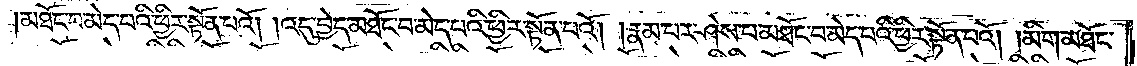མཐོང་བ་མེད་པའི་ཕྱིར་སྟོན་པའོ། །འདུ་བྱེད་མཐོང་བ་མེད་པའི་ཕྱིར་སྟོན་པའོ། །རྣམ་པར་ཤེས་པ་མཐོང་བ་མེད་པའི་ཕྱིར་སྟོན་པའོ། །མིག་མཐོང་
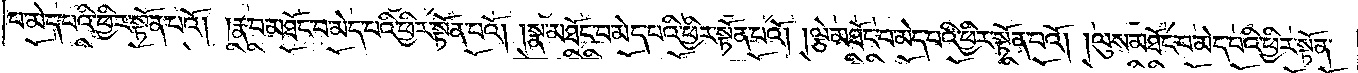པ་མེད་པའི་ཕྱིར་སྟོན་པའོ། །རྣ་བ་མཐོང་བ་མེད་པའི་ཕྱིར་སྟོན་པའོ། །སྣ་མཐོང་བ་མེད་པའི་ཕྱིར་སྟོན་པའོ། །ལྕེ་མཐོང་བ་མེད་པའི་ཕྱིར་སྤའོ། །ལུས་མཐོང་བ་མེད་པའི་ཕྱིར་སྟོན་
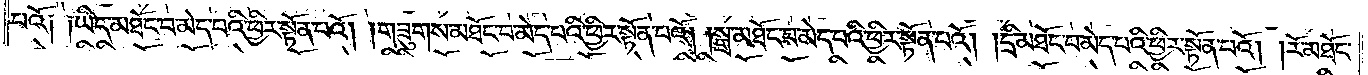པའོ༑ ༑ཡིད་མཐོང་བ་པའི་ཕྱིར་སྟོན་པའོ། །གཟུགས་མཐོང་བ་མེད་པའི་ཕྱིར་སྟོན་པའོ། །སྒྲ་མཐོང་བ་མེད་པའི་ཕྱིར་སྟོན་པའོ། །དྲི་མཐོང་བ་མེད་པའི་ཕྱིར་སྟོན་པའོ། །རོ་མཐོང་
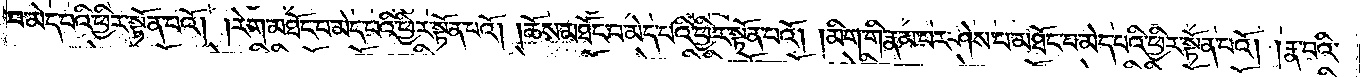བ་མེད་པའི་ཕྱིར་སྟོན་པའོ། །རེག་མཐོང་བ་མེད་པའི་ཕྱིར་སྟོན་པའོ། །ཆོས་མཐོང་བ་མེད་པའི་ཕྱིར་སྟོན་པའོ། །མིག་གི་རྣམ་པར་ཤེས་པ་མཐོང་བ་མེད་པའི་ཕྱིར་སྟོན་པའོ། །རྣ་བའི་
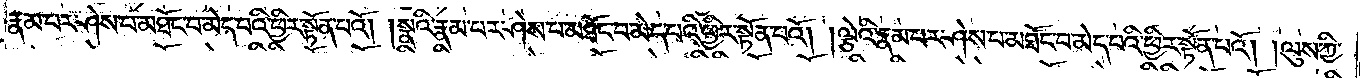རྣམ་པར་ཤེས་པ་མཐོང་བ་མེད་པའི་ཕྱིར་སྟོན་པའོ། །སྣའི་རྣམ་པར་ཤེས་པ་མཐོང་བ་མེད་པའི་ཕྱིར་སྟོན་པའོ། །ལྕེའི་རྣམ་པར་ཤེས་པ་མཐོང་བ་མེད་པའི་ཕྱིར་སྟོན་པའོ། །ལུས་ཀྱི་
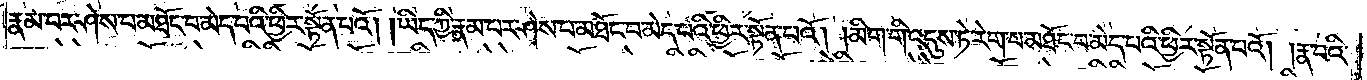རྣམ་པར་ཤེས་པ་མཐོང་བ་མེད་པའི་ཕྱིར་སྟོན་པའོ། །ཡིད་ཀྱི་རྣམ་པར་ཤེས་པ་མཐོང་བ་མེད་པའི་ཕྱིར་སྟོན་པའོ། །མིག་གི་འདུས་ཏེ་རེག་པ་མཐོང་བ་མེད་པའི་ཕྱིར་སྟོན་པའོ། །རྣ་བའི་
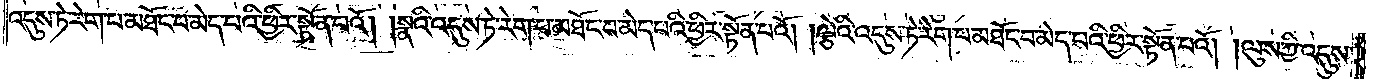འདུས་ཏེ་རེག་པ་མཐོང་བ་མེད་པའི་ཕྱིར་སྟོན་པའོ། །སྣའི་འདུས་ཏེ་རེག་པ་མཐོང་བ་མེད་པའི་ཕྱིར་སྟོན་པའོ། །ལྕེའི་འདུས་ཏེ་རེག་པ་མཐོང་བ་མེད་པའི་ཕྱིར་སྟོན་པའོ། །ལུས་ཀྱི་འདུས་
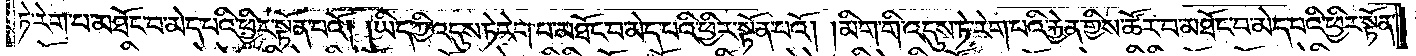ཏེ་རེག་པ་མཐོང་བ་མེད་པའི་ཕྱིར་སྟོན་པའོ། །ཡིད་ཀྱི་འདུས་ཏེ་རེག་པ་མཐོང་བ་མེད་པའི་ཕྱིར་སྟོན་པའོ། །མིག་གི་འདུས་ཏེ་རེག་པའི་རྐྱེན་གྱིས་ཚོར་བ་མཐོང་བ་མེད་པའི་ཕྱིར་སྟོན་
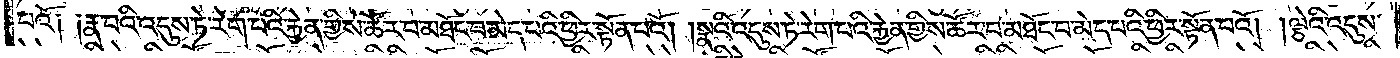པའོ༑ ༑རྣ་བའི་འདུས་ཏེ་རེག་པའི་རྐྱེན་གྱིས་ཚོར་བ་མཐོང་བ་མེད་པའི་ཕྱིར་སྟོན་པའོ། །སྣའི་འདུས་ཏེ་རེག་པའི་རྐྱེན་གྱིས་ཚོར་བ་མཐོང་བ་མེད་པའི་ཕྱིར་སྟོན་པའོ། །ལྕེའི་འདུས་
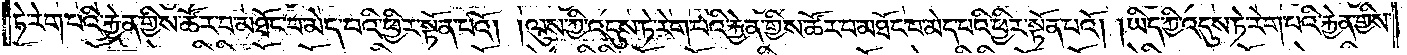ཏེ་རེག་པའི་རྐྱེན་གྱིས་ཚོར་བ་མཐོང་བ་མེད་པའི་ཕྱིར་སྟོན་པའོ། །ལུས་ཀྱི་འདུས་ཏེ་རེག་པའི་རྐྱེན་གྱིས་ཚོར་བ་མཐོང་བ་མེད་པའི་ཕྱིར་སྟོན་པའོ། །ཡིད་ཀྱི་འདུས་ཏེ་རེག་པའི་རྐྱེན་གྱིས་
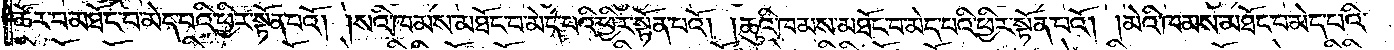ཚོར་བ་མཐོང་བ་མེད་པའི་ཕྱིར་སྟོན་པའོ། །སའི་ཁམས་མཐོང་བ་མེད་པའི་ཕྱིར་སྟོན་པའོ། །ཆུའི་ཁམས་མཐོང་བ་མེད་པའི་ཕྱིར་སྟོན་པའོ། །མེའི་ཁམས་མཐོང་བ་མེད་པའི་
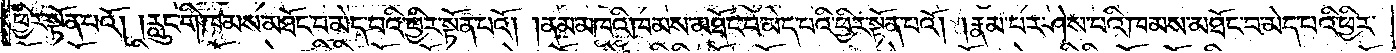ཕྱིར་སྟོན་པའོ། །རླུང་གི་ཁམས་མཐོང་བ་མེད་པའི་ཕྱིར་སྟོན་པའོ། །ནམ་མཁའི་ཁམས་མཐོང་བ་མེད་པའི་ཕྱིར་སྟོན་པའོ། །རྣམ་པར་ཤེས་པའི་ཁམས་མཐོང་བ་མེད་པའི་ཕྱིར་
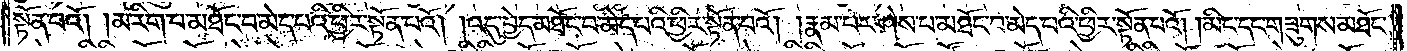སྟོན་པའོ། །མ་རིག་པ་མཐོང་བ་མེད་པའི་ཕྱིར་སྟོན་པའོ། །འདུ་བྱེད་མཐོང་བ་མེད་པའི་ཕྱིར་སྟོན་པའོ། །རྣམ་པར་ཤེས་པ་མཐོང་བ་མེད་པའི་ཕྱིར་སྟོན་པའོ། །མིང་དང་གཟུགས་མཐོང་
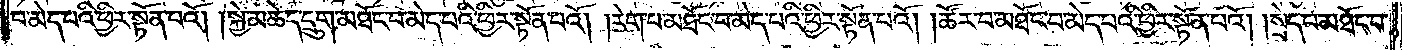བ་མེད་པའི་ཕྱིར་སྟོན་པའོ། །སྐྱེ་མཆེད་དྲུག་མཐོང་བ་མེད་པའི་ཕྱིར་སྟོན་པའོ། །རེག་པ་མཐོང་བ་མེད་པའི་ཕྱིར་སྟོན་པའོ། །ཚོར་བ་མཐོང་བ་མེད་པའི་ཕྱིར་སྟོན་པའོ། །སྲེད་པ་མཐོང་བ་
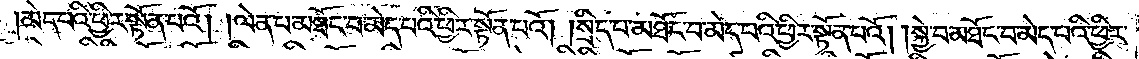མེད་པའི་ཕྱིར་སྟོན་པའོ། །ལེན་པ་མཐོང་བ་མེད་པའི་ཕྱིར་སྟོན་པའོ། །སྲིད་པ་མཐོང་བ་མེད་པའི་ཕྱིར་སྟོན་པའོ། །སྐྱེ་བ་མཐོང་བ་མེད་པའི་ཕྱིར་
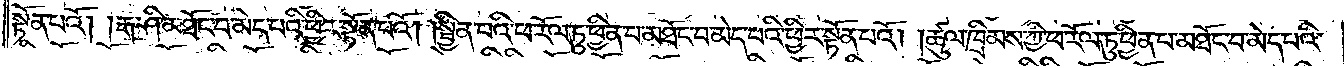སྟོན་པའོ། །རྒ་ཤི་མཐོང་བ་མེད་པའི་ཕྱིར་སྟོན་པའོ། །སྦྱིན་པའི་ཕ་རོལ་ཏུ་ཕྱིན་པ་མཐོང་བ་མེད་པའི་ཕྱིར་སྟོན་པའོ། །ཚུལ་ཁྲིམས་ཀྱི་ཕ་རོལ་ཏུ་ཕྱིན་པ་མཐོང་བ་མེད་པའི་
